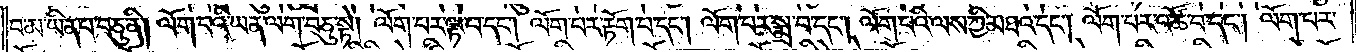བ་མ་ཡིན་པ་བཅུ་ནི། ལོག་པའི་ཡན་ལག་བཅུ་སྟེ། ལོག་པར་ལྟ་བ་དང༌། ལོག་པར་རྟོག་པ་དང༌། ལོག་པར་སྨྲ་བ་དང༌། ལོག་པའི་ལས་ཀྱི་མཐའ་དང༌། ལོག་པར་འཚོ་བ་དང༌། ལོག་པར་
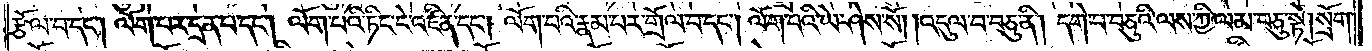རྩོལ་བ་དང༌། ལོག་པར་དྲན་པ་དང༌། ལོག་པའི་ཏིང་ངེ་འཛིན་དང༌། ལོག་པའི་རྣམ་པར་གྲོལ་བ་དང༌། ལོག་པའི་ཡེ་ཤེས་སོ། །འདུལ་བ་བཅུ་ནི། དགེ་བ་བཅུའི་ལས་ཀྱི་ལམ་བཅུ་སྟེ། སྲོག་
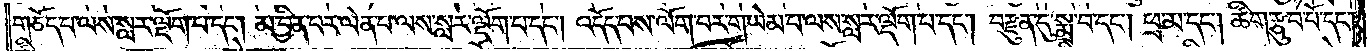གཅོད་པ་ལས་སླར་ལྡོག་པ་དང༌། མ་བྱིན་པ་ལེན་པ་ལས་སླར་ལྡོག་པ་དང༌། འདོད་པས་ལོག་པར་གཡེམ་པ་ལས་སླར་ལྡོག་པ་དང༌། བརྫུན་དུ་སྨྲ་བ་དང༌། ཕྲ་མ་དང༌། ཚིག་རྩུབ་པོ་དང༌།
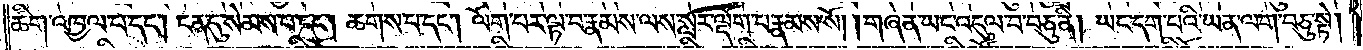ཚིག་འཁྱལ་པ་དང༌། ངན་དུ་སེམས་པ་དང༌། ཆགས་པ་དང༌། ལོག་པར་ལྟ་བ་རྣམས་ལས་སླར་ལྡོག་པ་རྣམས་སོ། །གཞན་ཡང་འདུལ་བ་བཅུ་ནི། ཡང་དག་པའི་ཡན་ལག་བཅུ་སྟེ།
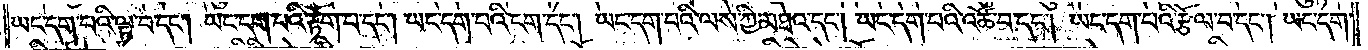ཡང་དག་པའི་ལྟ་བ་དང༌། ཡང་དག་པའི་རྟོག་པ་དང༌། ཡང་དག་པའི་ངག་དང༌། ཡང་དག་པའི་ལས་ཀྱི་མཐའ་དང༌། ཡང་དག་པའི་འཚོ་བ་དང༌། ཡང་དག་པའི་རྩོལ་བ་དང༌། ཡང་དག་
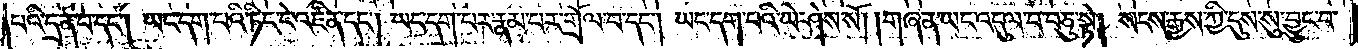པའི་དྲན་པ་དང༌། ཡང་དག་པའི་ཏིང་ངེ་འཛིན་དང༌། ཡང་དག་པར་རྣམ་པར་གྲོལ་བ་དང༌། ཡང་དག་པའི་ཡེ་ཤེས་སོ། །གཞན་ཡང་འདུལ་བ་བཅུ་སྟེ། སངས་རྒྱས་ཀྱི་དུས་སུ་བྱུང་བ་
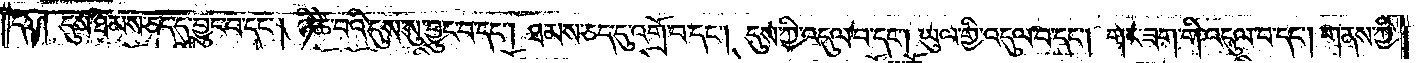དང༌། དུས་ཐམས་ཅད་དུ་བྱུང་བ་དང༌། ཉི་ཚེ་བའི་དུས་སུ་བྱུང་བ་དང༌། ཐམས་ཅད་དུ་འགྲོ་བ་དང༌། དུས་ཀྱི་འདུལ་བ་དང༌། ཡུལ་གྱི་འདུལ་བ་དང༌། གང་ཟག་གི་འདུལ་བ་དང༌། གནས་ཀྱི་
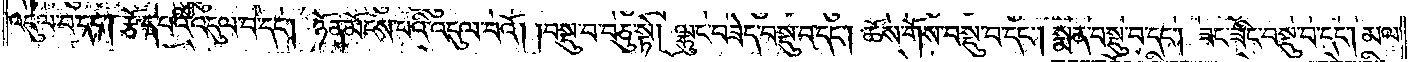འདུལ་བ་དང༌། རྩོད་པའི་འདུལ་བ་དང༌། ཉོན་མོངས་པའི་འདུལ་བའོ། །བསྡུ་བ་བཅུ་སྟེ། ལྷུང་བཟེད་བསྡུ་བ་དང༌། ཆོས་གོས་བསྡུ་བ་དང༌། སྨན་བསྡུ་བ་དང༌། ཟང་ཟིང་བསྡུ་པ་དང༌། མལ་
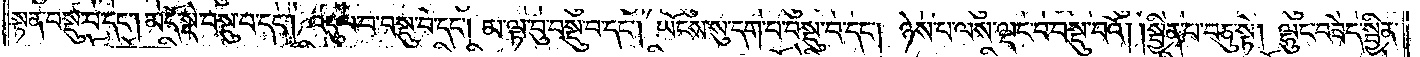སྟན་བསྡུ་བ་དང༌། མདོ་སྡེ་བསྡུ་པ་དང༌། འདུལ་བ་བསྡུ་བ་དང༌། མ་ལྟ་བུ་བསྡུ་བ་དང༌། ཡོངས་སུ་དག་པ་བསྡུ་བ་དང༌། ཉེས་པ་ལས་ལྡང་བ་བསྡུ་བའོ། །སྦྱིན་པ་བཅུ་སྟེ། ལྷུང་བཟེད་སྦྱིན་
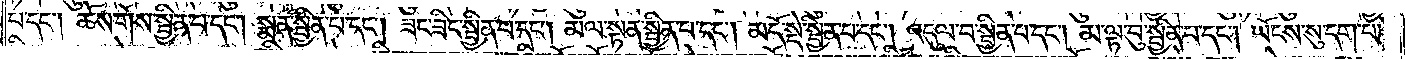པ་དང༌། ཆོས་གོས་སྦྱིན་པ་དང༌། སྨན་སྦྱིན་པ་དང༌། ཟང་ཟིང་སྦྱིན་པ་དང༌། མལ་སྟན་སྦྱིན་པ་དང༌། མདོ་སྡེ་སྦྱིན་པ་དང༌། འདུལ་བ་སྦྱིན་པ་དང༌། མ་ལྟ་བུ་སྦྱིན་པ་དང༌། ཡོངས་སུ་དག་པ་
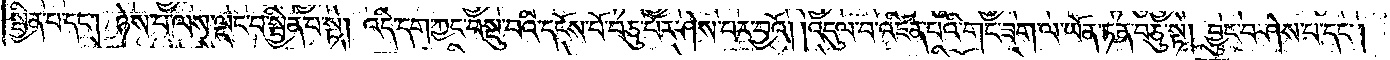སྦྱིན་པ་དང༌། ཉེས་པ་ལས་ལྡང་བ་སྦྱིན་པ་སྟེ། འདི་དག་ཀྱང་བསྡུ་བའི་དངོས་པོ་བཅུ་པར་ཤེས་པར་བྱའོ། །འདུལ་བ་འཛིན་པའི་གང་ཟག་ལ་ཡོན་ཏན་བཅུ་སྟེ། བྱུང་བ་ཤེས་པ་དང༌།
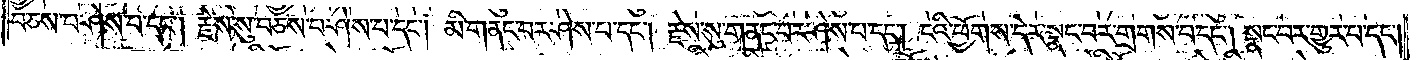བཅས་པ་ཤེས་པ་དང༌། རྗེས་སུ་བཅས་པ་ཤེས་པ་དང༌། མི་གནང་བར་ཤེས་པ་དང༌། རྗེས་སུ་གནང་བར་ཤེས་པ་དང༌། ངའི་ཕྱོགས་དེར་སྣང་བར་གྲགས་པ་དང༌། སྣང་བར་གྱུར་པ་དང༌།
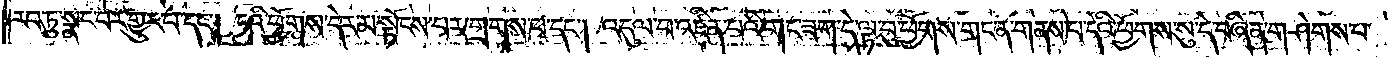རབ་ཏུ་སྣང་བར་གྱུར་པ་དང༌། ངའི་ཕྱོགས་དེར་མ་སྟོངས་པར་གྲགས་པ་དང༌། འདུལ་བ་འཛིན་པའི་གང་ཟག་དེ་ལྟ་བུ་ཕྱོགས་གང་ན་གནས་པ་དེའི་ཕྱོགས་སུ་དེ་བཞིན་གཤེགས་པ་
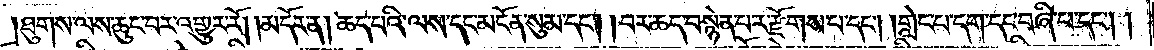ཐུགས་ལས་ཆུང་བར་འགྱུར་རོ། །མདོར་ན། ཆད་པའི་ལས་དང་མངོན་སུམ་དང༌། །བར་ཆད་བསྙེན་པར་རྫོགས་པ་དང༌། །གླེང་པ་དག་དང་བཞི་པ་དང༌། །
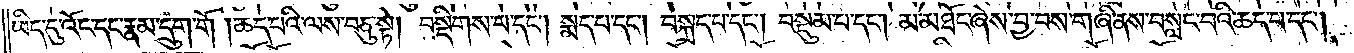ཡིད་དུ་འོང་དང་རྣམ་དྲུག་གོ །ཆད་པའི་ལས་བཅུ་སྟེ། བསྡིགས་པ་དང༌། སྨད་པ་དང༌། བསྐྲད་པ་དང༌། བསྡུམ་པ་དང༌། མ་མཐོང་ཞེས་བྱ་བས་གཞི་ནས་བསླང་བའི་ཆད་པ་དང༌།
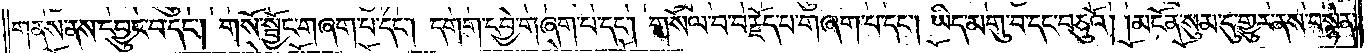གནས་ནས་དབྱུང་བ་དང༌། གསོ་སྦྱོང་གཞག་པ་དང༌། དགག་དབྱེ་གཞག་པ་དང༌། གསོལ་བ་བརྗོད་པ་གཞག་པ་དང༌། ཡིད་མགུ་བ་དང་བཅུའོ། །མངོན་སུམ་དུ་གྱུར་ནས་བསྙེན་
